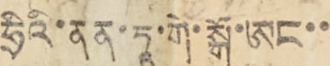ཧྲིའི་ནན་ཏཱ་གེ་སྒོ་ཨང་་
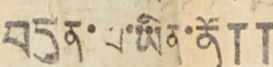བདུན་པ་ཡིན་ནོ༎
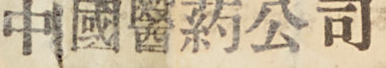中國醫葯公司
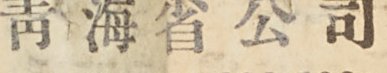青 海 省 公 司
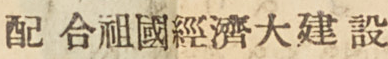配 合祖國經濟大建設
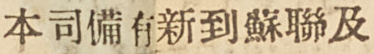本司備有新到蘇聯及
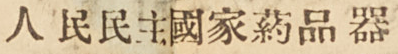人民民主國家葯品器
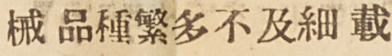械 品種繁多不及細載
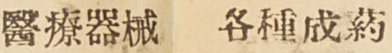醫療器械 各種成葯
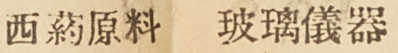西葯原料 玻璃儀器
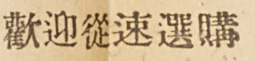歡迎從速選購
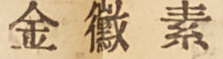金 黴 素
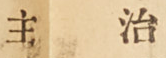主 治
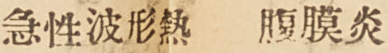急性波形熱 腹膜炎
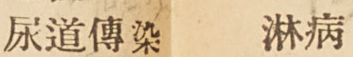尿道傳染 淋病
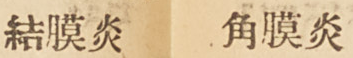結膜炎 角膜炎
